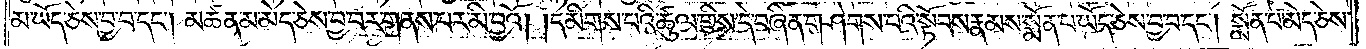མ་ཡོད་ཅེས་བྱ་བ་དང༌། མཚན་མ་མེད་ཅེས་བྱ་བར་གནས་པར་མི་བྱའོ། །དམིགས་པའི་ཚུལ་གྱིས། དེ་བཞིན་གཤེགས་པའི་སྟོབས་རྣམས་སྨོན་པ་ཡོད་ཅེས་བྱ་བ་དང༌། སྨོན་པ་མེད་ཅེས་
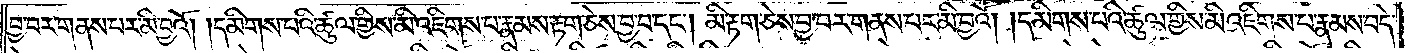བྱ་བར་གནས་པར་མི་བྱའོ། །དམིགས་པའི་ཚུལ་གྱིས་མི་འཇིགས་པ་རྣམས་རྟག་ཅེས་བྱ་བ་དང༌། མི་རྟག་ཅེས་བྱ་བར་གནས་པར་མི་བྱའོ། །དམིགས་པའི་ཚུལ་གྱིས་མི་འཇིགས་པ་རྣམས་བདེ་
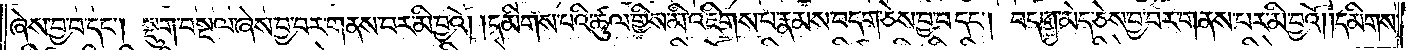ཞེས་བྱ་བ་དང༌། སྡུག་བསྔལ་ཞེས་བྱ་བར་གནས་པར་མི་བྱའོ། །དམིགས་པའི་ཚུལ་གྱིས་མི་འཇིགས་པ་རྣམས་བདག་ཅེས་བྱ་བ་དང༌། བདག་མེད་ཅེས་བྱ་བར་གནས་པར་མི་བྱའོ། །དམིགས་
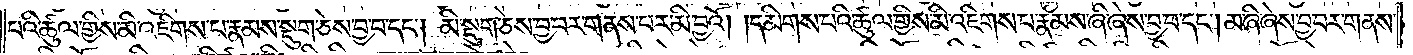པའི་ཚུལ་གྱིས་མི་འཇིགས་པ་རྣམས་སྡུག་ཅེས་བྱ་བ་དང༌། མི་སྡུག་ཅེས་བྱ་བར་གནས་པར་མི་བྱའོ། །དམིགས་པའི་ཚུལ་གྱིས་མི་འཇིགས་པ་རྣམས་ཞི་ཞེས་བྱ་བ་དང༌། མ་ཞི་ཞེས་བྱ་བར་གནས་
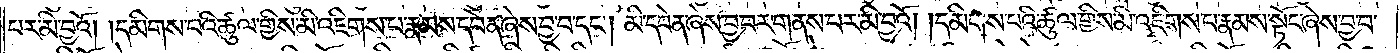པར་མི་བྱའོ། །དམིགས་པའི་ཚུལ་གྱིས་མི་འཇིགས་པ་རྣམས་དབེན་ཞེས་བྱ་བ་དང༌། མི་དབེན་ཞེས་བྱ་བར་གནས་པར་མི་བྱའོ། །དམིགས་པའི་ཚུལ་གྱིས་མི་འཇིགས་པ་རྣམས་སྟོང་ཞེས་བྱ་བ་
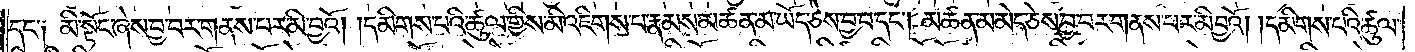དང༌༏ མི་སྟོང་ཞེས་བྱ་བར་གནས་པར་མི་བྱའོ། །དམིགས་པའི་ཚུལ་གྱིས་མི་འཇིགས་པ་རྣམས་མཚན་མ་ཡོད་ཅེས་བྱ་བ་དང༌། མཚན་མ་མེད་ཅེས་བྱ་བར་གནས་པར་མི་བྱའོ། །དམིགས་པའི་ཚུལ་
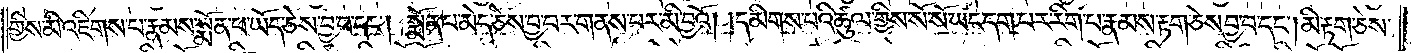གྱིས་མི་འཇིགས་པ་རྣམས་སྨོན་པ་ཡོད་ཅེས་བྱ་བ་དང༌། སྨོན་པ་མེད་ཅེས་བྱ་བར་གནས་པར་མི་བྱའོ། །དམིགས་པའི་ཚུལ་གྱིས་སོ་སོ་ཡང་དག་པར་རིག་པ་རྣམས་རྟག་ཅེས་བྱ་བ་དང༌། མི་རྟག་ཅེས་
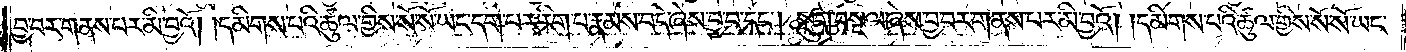བྱ་བར་གནས་པར་མི་བྱའོ། །དམིགས་པའི་ཚུལ་གྱིས་སོ་སོ་ཡང་དག་པར་རིག་པ་རྣམས་བདེ་ཞེས་བྱ་བ་དང༌། སྡུག་བསྔལ་ཞེས་བྱ་བར་གནས་པར་མི་བྱའོ། །དམིགས་པའི་ཚུལ་གྱིས་སོ་སོ་ཡང་
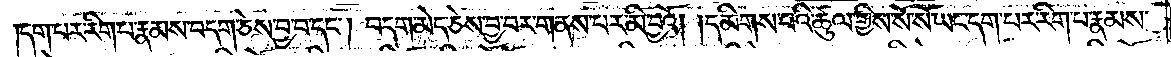དག་པར་རིག་པ་རྣམས་བདག་ཅེས་བྱ་བ་དང༌། བདག་མེད་ཅེས་བྱ་བར་གནས་པར་མི་བྱའོ། །དམིགས་པའི་ཚུལ་གྱིས་སོ་སོ་ཡང་དག་པར་རིག་པ་རྣམས་
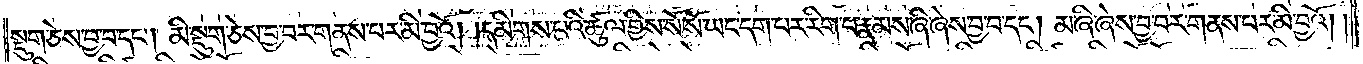སྡུག་ཅེས་བྱ་བ་དང༌། མི་སྡུག་ཅེས་བྱ་བར་གནས་པར་མི་བྱའོ། །དམིགས་པའི་ཚུལ་གྱིས། སོ་སོ་ཡང་དག་པར་རིག་པ་རྣམས་ཞི་ཞེས་བྱ་བ་དང༌། མ་ཞི་ཞེས་བྱ་བར་གནས་པར་མི་བྱའོ། །
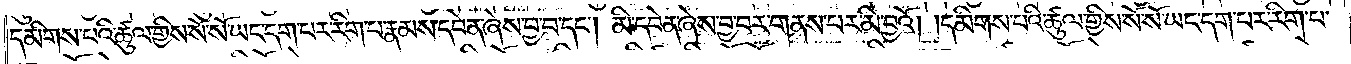དམིགས་པའི་ཚུལ་གྱིས་སོ་སོ་ཡང་དག་པར་རིག་པ་རྣམས་དབེན་ཞེས་བྱ་བ་དང༌། མི་དབེན་ཞེས་བྱ་བར་གནས་པར་མི་བྱའོ། །དམིགས་པའི་ཚུལ་གྱིས་སོ་སོ་ཡང་དག་པར་རིག་པ་
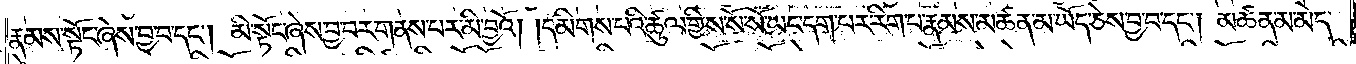རྣམས་སྟོང་ཞེས་བྱ་བ་དང༌། མི་སྟོང་ཞེས་བྱ་བར་གནས་པར་མི་བྱའོ། །དམིགས་པའི་ཚུལ་གྱིས་སོ་སོ་ཡང་དག་པར་རིག་པ་རྣམས་མཚན་མ་ཡོད་ཅེས་བྱ་བ་དང༌། མཚན་མ་མེད་
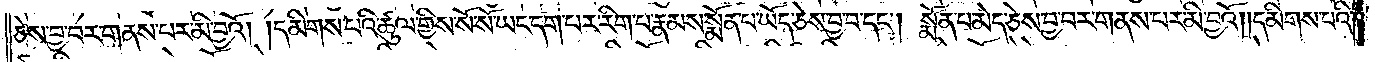ཅེས་བྱ་བར་གནས་པར་མི་བྱའོ། །དམིགས་པའི་ཚུལ་གྱིས་སོ་སོ་ཡང་དག་པར་རིག་པ་རྣམས་སྨོན་པ་ཡོད་ཅེས་བྱ་བ་དང༌། སྨོན་པ་མེད་ཅེས་བྱ་བར་གནས་པར་མི་བྱའོ། །དམིགས་པའི་
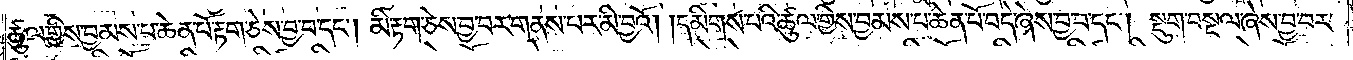ཚུལ་གྱིས་བྱམས་པ་ཆེན་པོ་རྟག་ཅེས་བྱ་བ་དང༌། མི་རྟག་ཅེས་བྱ་བར་གནས་པར་མི་བྱའོ། །དམིགས་པའི་ཚུལ་གྱིས་བྱམས་པ་ཆེན་པོ་བདེ་ཞེས་བྱ་བ་དང༌། སྡུག་བསྔལ་ཞེས་བྱ་བར་
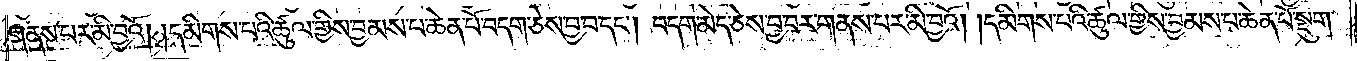གནས་པར་མི་བྱའོ། །དམིགས་པའི་ཚུལ་གྱིས་བྱམས་པ་ཆེན་པོ་བདག་ཅེས་བྱ་བ་དང༌། བདག་མེད་ཅེས་བྱ་བར་གནས་པར་མི་བྱའོ། །དམིགས་པའི་ཚུལ་གྱིས་བྱམས་པ་ཆེན་པོ་སྡུག་
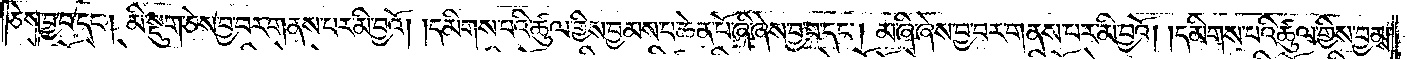ཅེས་བྱ་བ་དང༌། མི་སྡུག་ཅེས་བྱ་བར་གནས་པར་མི་བྱའོ། །དམིགས་པའི་ཚུལ་གྱིས་བྱམས་པ་ཆེན་པོ་ཞི་ཞེས་བྱ་བ་དང༌། མ་ཞི་ཞེས་བྱ་བར་གནས་པར་མི་བྱའོ། །དམིགས་པའི་ཚུལ་གྱིས་བྱམས་
